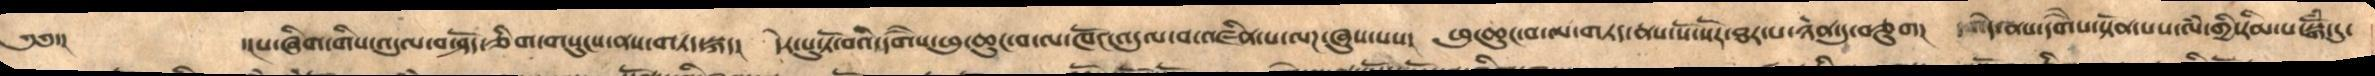༄༅་།       ་།ས་ཞིག་གིས་འདུལ་བ་ཤོད་ཅིག་གསུངས་ནས་གཏད་སྐད།   དེར་པུ་ཏོ་བའི་དགཻས་ཕུ་ཆུང་བ་ལ་ཁོང་འདུལ་བ་འཛིན་པ་ལཌ་ཞུས་པས།   ཕུ་ཆུང་བ་ལ་གཏད་ནས་སོ་སོར་ཐར་པ་ཉེན་དུ་བཅུག།   དེ་ནས་དགཻས་སྟོན་པས་ལཾ་གྱི་རིམ་པ་སྒོཾ་དུ་
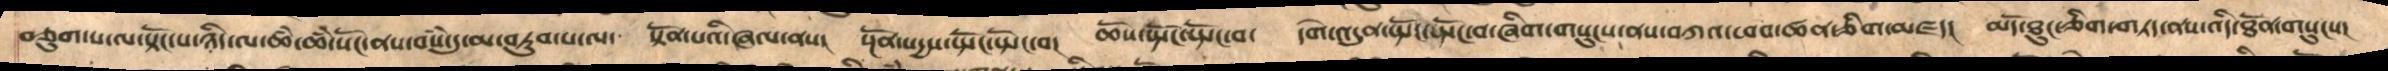བཅུག་པ་ལ་སྟོང་པ་ཉིད་ལ་ཆཾ་ཆཾ་སོང་ནས་བསཾ་དུ་མ་བཏུབ་པ་ལ།   སྟོན་པའི་ཞལ་ནས།   སྔོན་སདྱས་སྤོང་སྤོང་བ།   ཆོས་སྤོང་སྤོང་བ་   དགེ་འདུན་སྤོང་སྤོང་བ་ཞིག་གསུངས་ནས་བཀའ་ཕབ་ཚན་ཅིག་མཛད།   མདོ་ཐུང་ཅིག་གཏད་ནས་འདི་ཐོན་གསུངས།
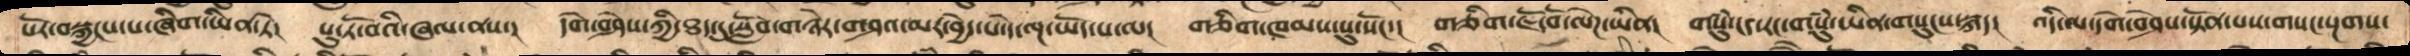པོར་བསྐྱངས་པ་ཞིག་ཡིན་ཏེ།   པུ་ཏོ་བའི་ཞལ་ནས།   དགེ་བཤེས་ཀྱི་ཐད་དུ་སློབ་གཉེར་གཤའ་མར་བྱེད་པ་དེ་ལྔ་ཡོད་པ་ལ།   གཅིག་ཁམས་སུ་སོང་།   གཅིག་ཇོ་བོ་ལེཌ་ཡིན།  གསུཾ་ངད་རང་གསུཾ་ཡིན་གསུངས་སྐད།   འདི་ལ་དགེ་བཤེས་སྟོན་པས་གསང་སྔགས་
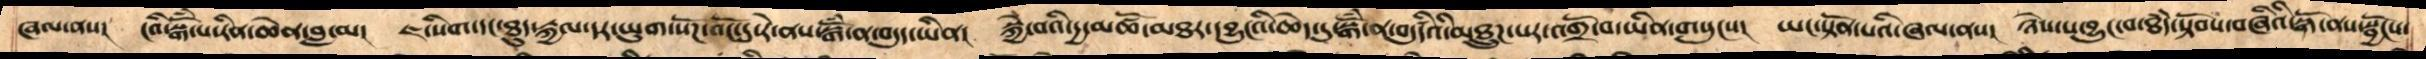ཞལ་ནས།  ངའི་སྒོཾ་པ་རིན་ཆེན་བླ་མ།   ཇ་སིག་དང་ཐུད་རྐྱལ་དར་ཡུག་སོཌ་འོང་དུ་རེ་ནས་སྒོཾ་ན་བདུད་ཡིན།  སྐྱེ་བའི་དྱ་མཚོ་མཐར་དབྱུངའི་ཆེད་དུ་སྒོཾ་ན་བདུདིཙའི་་མཐྲུཌ་པར་འགྲོ་བ་ཡིན་གསུངས།    ཡང་སྟོན་པའི་ཞལ་ནས།    ཉེས་པ་བྱུང་བ་ཐཾད་སྟོབས་བཞིའི་སྒོ་ནས་སྦྱོངས་
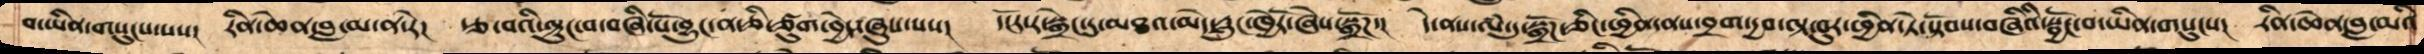བ་ཡིན་གསུངས་པས།   རིན་ཆེན་བླ་མ་ན་རེ།   རྩ་བའི་ལྟུང་བ་བཞི་པོ་བྱུང་ན་ཅི་ཙུག་བྱེད་ཞུས་པས།   དངོར་ར་སྒྲེང་དུ་མཐའ་མེད་རླུང་ཁྱེརོ་ཞེས་སྒྲོཌ།   དེ་ནས་ལཾ་དུ་སྒྲོཌ་ཅིང་ཕྱིན་ནས་བྲག་དྱབ་ལྟ་བུར་ཕྱིན་ཏེ་སྟོབས་བཞིའི་སྦྱོང་བ་ཡིན་གསུངས།  རིན་ཆེན་བླ་མའི
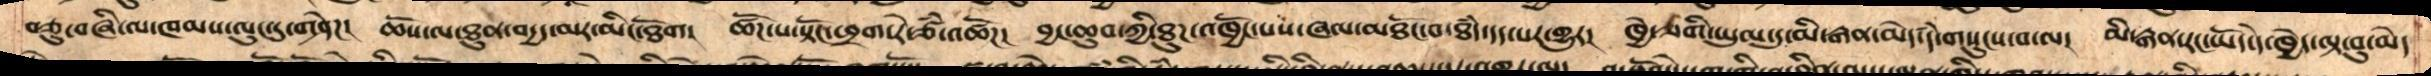བཅུ་བཞི་ལ་ཁམས་ལུང་དུ་སྐུ་གཤེཌ།   ཆོས་ལ་ཐུན་བདྱད་མར་མིང་ཐོགས།   ཚོཌ་པ་སྟོང་ཕྲག་རེ་ཙཾ་འཚོཌ།   བྱང་ཆུབ་ཀྱི་ཐུཌ་འཁྱོང་པས་ཞལ་མཐོང་བ་ཐཾད་དད་པར་གྱུར།   ཁྱེད་ཅགི་ཡུལ་དུ་མི་རྒན་མེད་དཾ་གསུངས་བ་ལ།   མི་རྒན་རང་ཡོད་དེ་ཁྱེད་ལྟ་བུ་མེད་
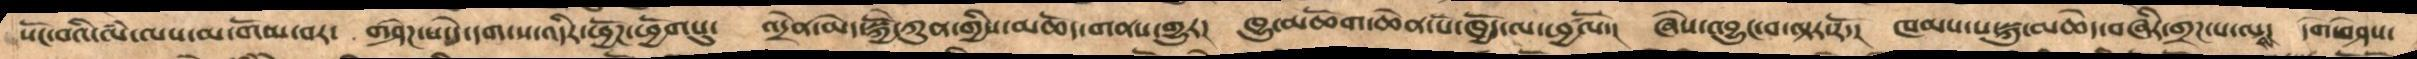སོང་བའི་ལཾ་ལས་མ་གོམ་བར།   གཤེཌ་པ་དེ་དག་ས་འདིར་ཕྱོཌ་ཕྱོགསུ་   འདྲེན་མེད་སྐྱོེ་ཀུན་གྱིས་མཆོད་གནས་གྱུར།   ཁྱུ་མཆོག་ཆེན་པོ་ཁྱོད་ལ་ཕྱཚལོ།   ཞེས་འབྱུང་བ་ལྟར་རོ་།   ཁམས་པ་སྐུ་མཆེད་བཞིར་གྲཌ་པ་ལས། དགེ་བཤེས་
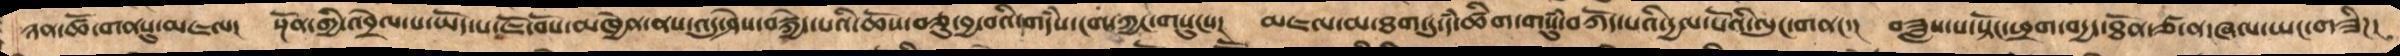ཉན་ཚོ་གནསུ་མཇལ།  སྔོན་གྱི་འབྲེལ་པ་ཡོད་པ་ཇོ་བོས་མཁྱེན་ནས་འདུ་ཤེས་བསྐྱེད་པའི་ཆོས་བཅུ་བྱ་བའི་གདཾས་ངག་ཀྱང་གསུངས།   མཇལ་མ་ཐག་དུ་དཾ་ཚིག་གསུཾ་བཀོད་པའི་དྱལ་པོའི་ལུང་གནང་།  བཟླས་པ་སྟོང་ཕྲག་བདྱད་ཐོན་ཙ་ན་ཞལ་ཡང་གཟིཌ།
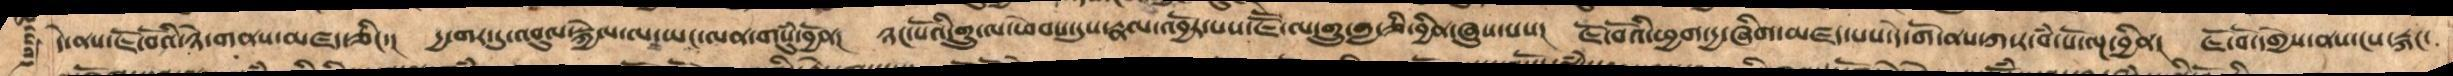དེ་ནས་ཇོ་བོའི་ཉེ་གནས་མཛད་ཅིང་།  དྱ་གར་དུ་འབུལ་སྐྱེལ་ལ་ཡང་ལན་གསུཾ་བྱོན།  ཉང་པོའི་གྲུ་ལ་ཕེབས་དུས་རྣལ་འབྱོར་པས་ཇཽ་ལ་གྲུ་གླ་ཅི་བྱིན་ཞུས་པས།  ཇོ་བོའི་ཕྱག་དྱ་ཞིག་མཛད་པས་དེ་གོ་ནས་ཀ་ར་བཾ་པོ་ལྔ་བྱིན།  ཇོ་བོ་དགྱེས་ནས་ངས་རྐང་
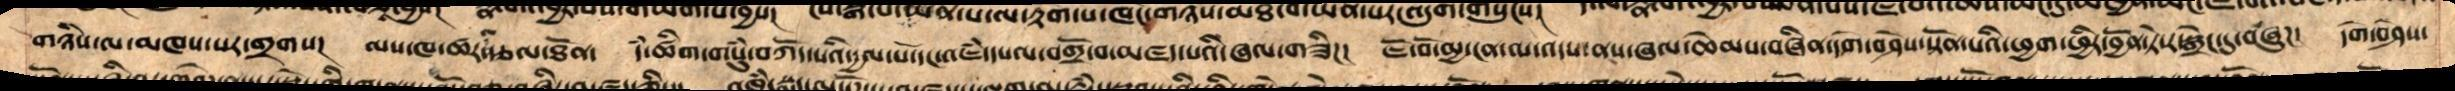གཉིས་ལ་མཁས་པར་གྲགས།  ལས་ཁ་ཚར་ལ་རྩལ་ཐོན།  དཾ་ཚིག་གསུཾ་བཀོད་པའི་དྱལ་པོ་དང་འཇཾ་དཔལ་བགྲོ་བ་མཛད་པའི་ཞལ་གཟིཌ།  ཇོ་བོ་མྱ་ངན་ལ་འདས་ནས་ཞལ་ཆེམས་བཞིན་དགེ་བཤེས་སྟོན་པའི་ཕྱག་ཕྱིར་བྱོན་ཏེ་ར་སྒྲེང་དུ་བཞུཌ།  དགེ་བཤེས་
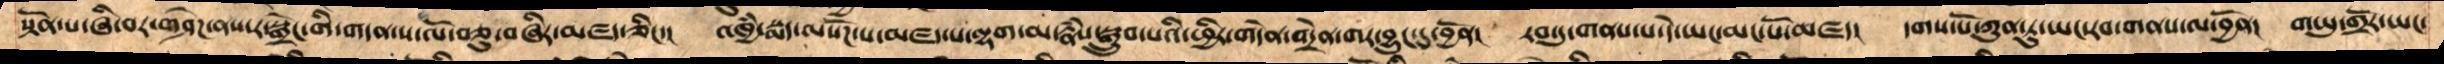སྟོན་པ་ཞི་བར་གཤེཌ་ནས་ར་སྒྲེང་གི་གདན་ས་ལོ་བཅུ་བཞིར་མཛད་ཅིང་།  འཁྱཾ་སྨད་ལསོཌ་པ་མཛད་པ་ལྷག་མ་རྣཾས་སྒྲུབ་པའི་ཕྱིར་གདེན་འདྲེན་གར་བྱུང་དུ་བྱོན།  རབ་ཏུ་གནས་པ་དེ་ཡང་མང་པོ་མཛད།   དགས་པོ་ཀུན་ཏུ་ཡང་རབ་གནས་ལ་བྱོན།   གཡུ་གྲོར་ཡང་
